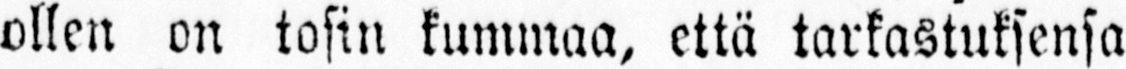ollen on tosin kummaa, että tarkastuksensa
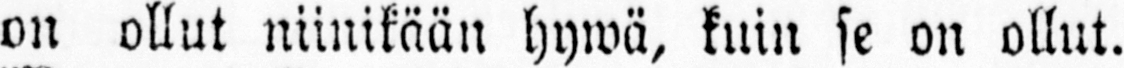on ollut niinikään hywä, kuin se on ollut.
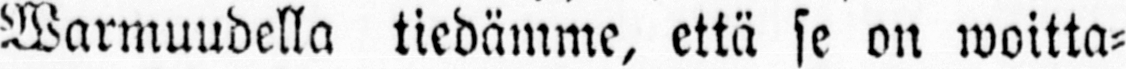Warmuudella tiedämme, että se on woitta-
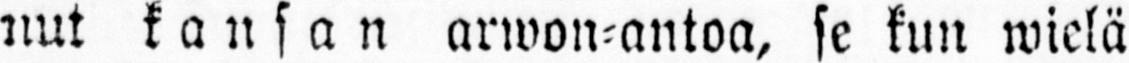nut kansan arwon-antoa, se kun wielä
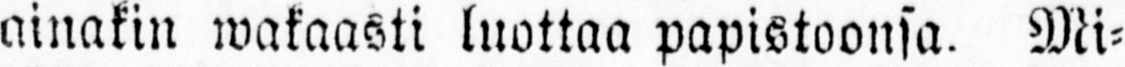ainakin wakaasti luottaa papistoonsa. Mi-
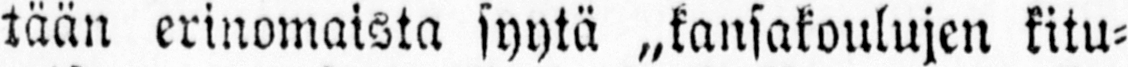tään erinomaista syytä „kansakoulujen kitu-
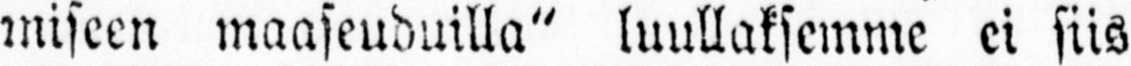miseen maaseuduilla" luullaksemme ei siis
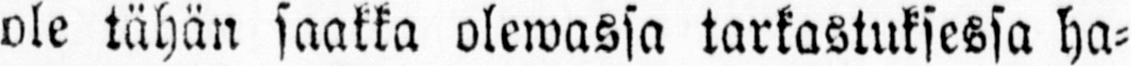ole tähän saakka olewassa tarkastuksessa ha-
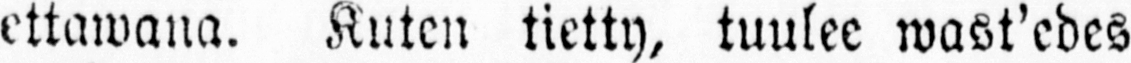ettawana. Kuten tietty, tuulee wast'edes
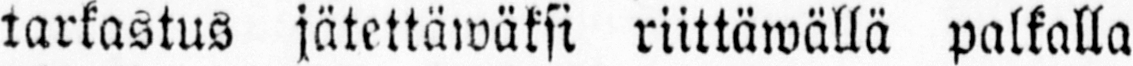tarkastus jätettäwäksi riittäwällä palkalla
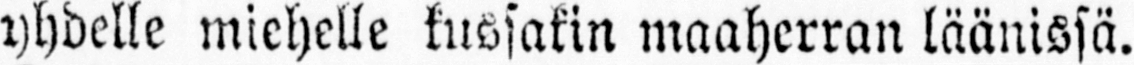yhdelle miehelle kussakin maaherran läänissä.
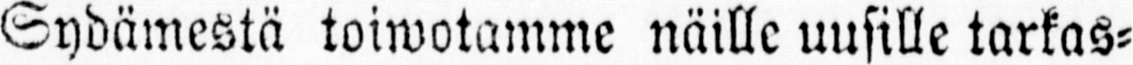Sydämestä toiwotamme näille uusille tarkas-
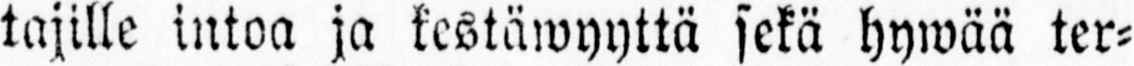tajille intoa ja kestäwyyttä sekä hywää ter-
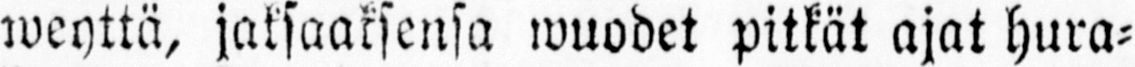weyttä, jaksaaksensa wuodet pitkät ajat hura-
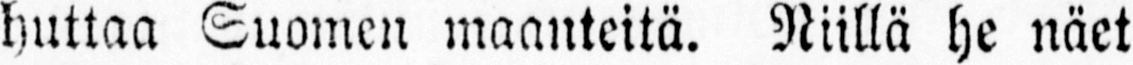huttaa Suomen maanteitä. Niillä he näet
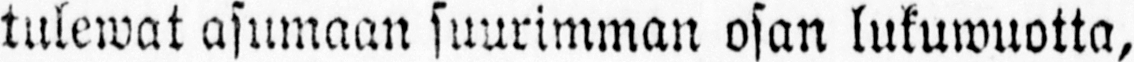tulewat asumaan suurimman osan lukuwuotta,
